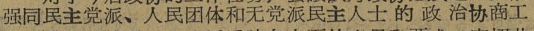强同民主党派、人民团体和无党派民主人士的政治协商工
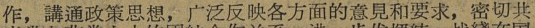作，講通政策思想，广泛反映各方面的意見和要求，密切共
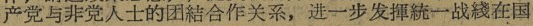产党与非党人士的团結合作关系，进一步发揮統一战綫在国
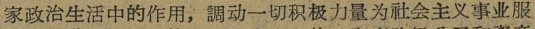家政治生活中的作用，調动一切积极力量为社会主义事业服
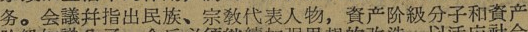务。会議并指出民族、宗敎代表人物，資产阶級分子和資产
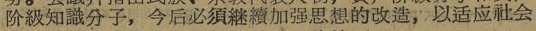阶級知識分子，今后必須継續加强思想的改造，以适应社会
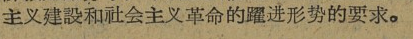主义建設和社会主义革命的躍进形势的要求。
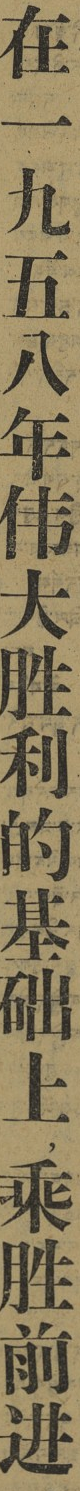在一九五八年伟大胜利的基础上乘胜前进
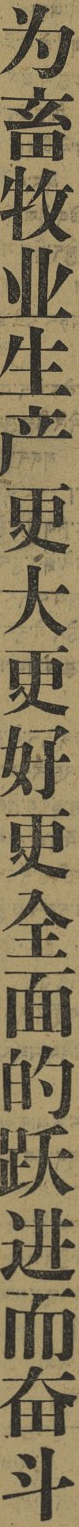为畜牧业生产更大更好更全面的跃进而奋斗
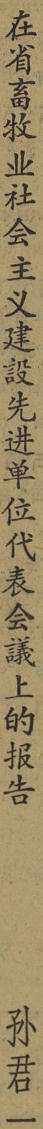在省畜牧业社会主义建設先进单位代表会議上的报告 孙君一
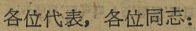各位代表，各位同志：
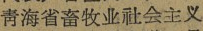靑海省畜牧业社会主义
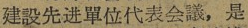建設先进单位代表会議，是
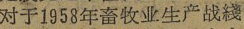对于1958年畜牧业生产战綫
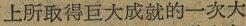上所取得巨大成就的一次大
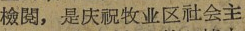檢閱，是庆祝牧业区社会主
